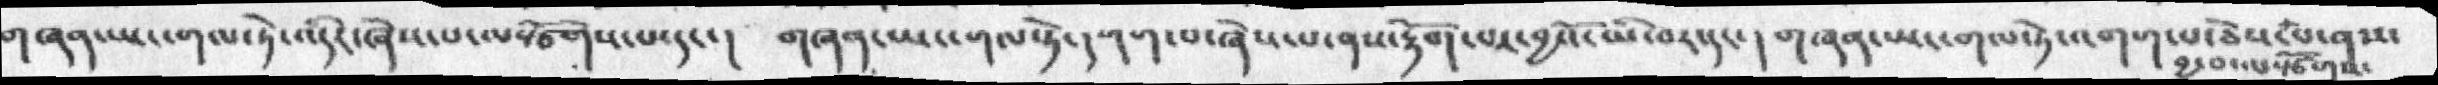གཞན་ཡང་གལ་ཏེ་འདིར་ཞེས་པ་ལསྩོགས་པ་དང་།   གཞན་ཡང་གལ་ཏེ་དགག་པ་ཞེས་པ་ནས་རྟོག་པར་བྱའོ་མི་བར་དང་།  གཞན་ཡང་གལ་ཏེ་དགག་པ་ཅེས་བྱ་ལསྩོགས་པ་ནས་
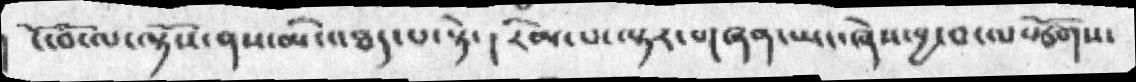ངོ་བོ་ལ་ལྟོས་ནས་མི་འཐད་པ་སྟེ་། རིམ་པ་ལྟར་གཞན་ཡང་ཞེས་བྱ་བ་ལསྩོགས་
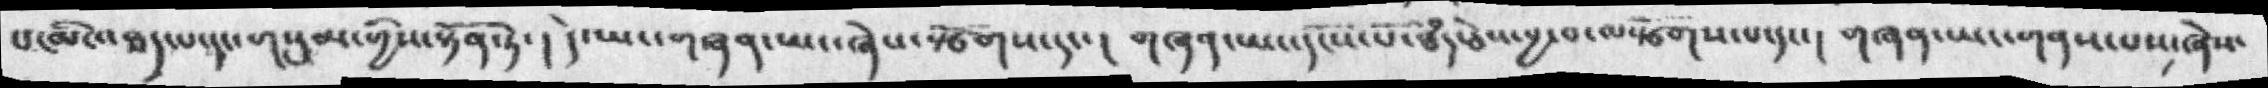པ་མི་འཐད་པ་དང་གསུམ་གྱིས་སྟོན་ཏེ་། དེ་ཡང་གཞན་ཡང་ཞེས་སྩོགས་དང་།  གཞན་ཡང་དངོས་པོ་ཐཾད་ཅེས་བྱ་བ་ལསྩོགས་པ་དང་།  གཞན་ཡང་གནས་པས་ཞེས་
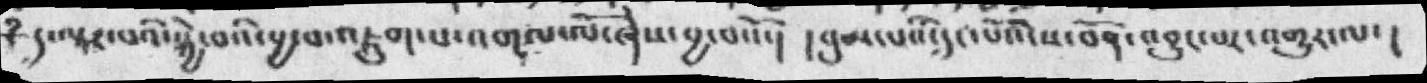རི་  ད་ལྟར་པའི་སྐྱེ་བའི་བྱ་བ་འཇུག་པ་འགལ་ལོ་ཞེས་བྱ་བའོ་།   །བུམ་པའི་དང་པོའི་ས་བོན་འབྱུང་པར་འགྱུར་ལ་  །
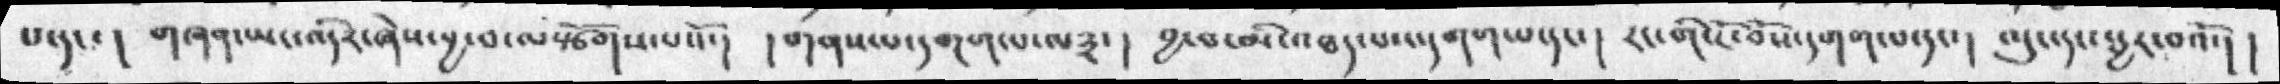པ་དང་།  གཞན་ཡང་འདིར་ཞེས་བྱ་བ་ལསྩོགས་པའོ་།  །གནས་པ་དགག་པ་ལ༣་།  བྱ་བ་མི་འཐད་པས་དགག་པ་དང་།   རང་གི་ངོ་བོས་དགག་པ་དང་།   ལུང་དང་སྦྱར་བའོ་། །
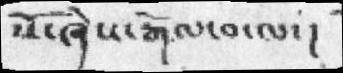སོ་ཞེས་རྒོལ་བ་ལ་།
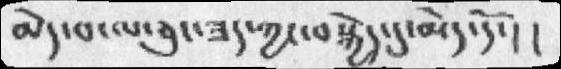མེད་པ་ལ་ཅུང་ཟད་ཀྱང་བསྐྱེད་དུ་མེད་དོ་། །
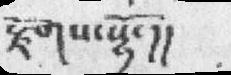སྫོགས་སྷོ་།།
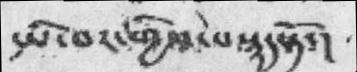ཡི་བར་གྱིས་བསྙད་དོ་།
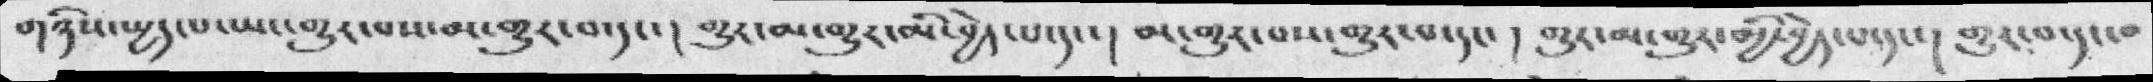གཉིས་སྤྱད་པ་ཡང་གྱུར་པས་མ་གྱུར་བ་དང་།  གྱུར་མ་གྱུར་མི་བྱེད་པ་དང་།  མ་གྱུར་བས་གྱུར་བ་དང་། གྱུར་མ་གྱུར་མྱི་བྱེད་པ་དང་། གྱུར་བ་དང་བ
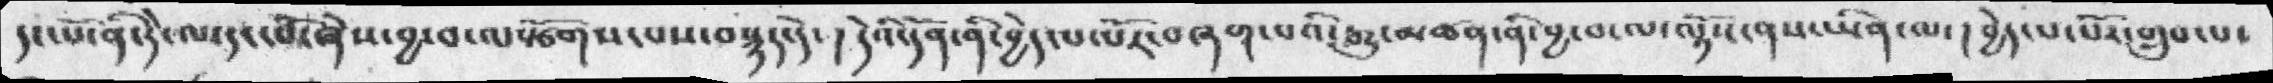དང་པོ་ནི་དེ་ལ་དང་པོ་ཞེས་བྱ་བ་ལསྩོགས་པས་བསྙད་དེ་།  དེའི་དོན་ནི་བྱེད་པ་པོར་བཞག་པའི་རྒྱུ་མཚན་ནི་བྱ་བ་ལ་ལྟོས་ནས་ཡིན་ལ་། བྱེད་པ་པོར་གྲུབ་པ་
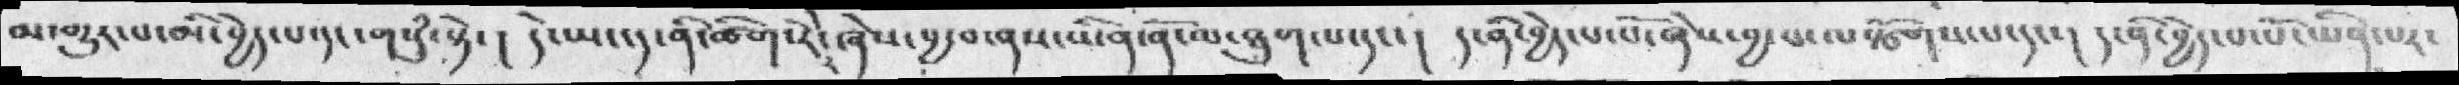མ་གྱུར་པ་མི་བྱེད་པ་དང་གསུཾ་སྟེ་།   དེ་ཡང་ད་ནི་ཚིག་རེ་རེ་ཞེས་བྱ་བ་ནས་ཡིན་ནོ་ལ་ཐུག་པ་དང་།   ད་ནི་བྱེད་པ་པོ་ཞེས་བྱ་བ་ལསྩོགས་པ་དང་།  ད་ནི་བྱེད་པ་པོ་ཡིན་པར་
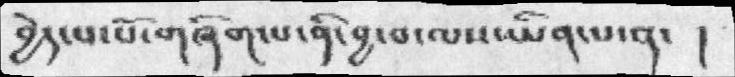བྱེད་པ་པོ་གཞིག་པ་ནི་བྱ་བ་ལས་ཡིན་པ་ན་ །
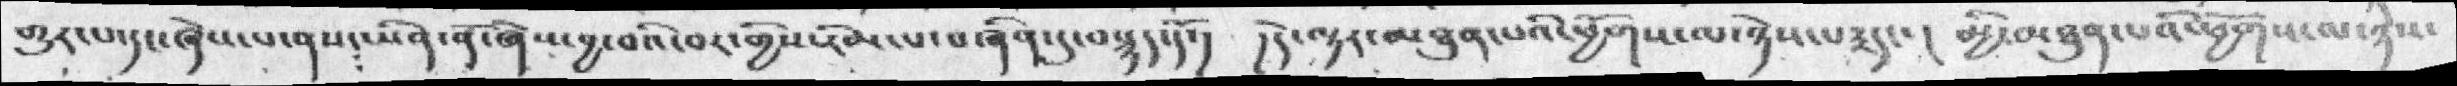གྱུར་པ་དང་ཞེས་པ་ནས་ཡིན་ནོ་ཞེས་བྱ་བའི་བར་གྱིས་རིམ་པ་བཞིན་དུ་བསྙད་དོ་། །དེ་ལྟར་མཐུན་པའི་ཕྱོགས་ལ་ཉེས་པ༣དང་། མྱི་མཐུན་པའི་ཕྱོགས་ལ་ཉེས་
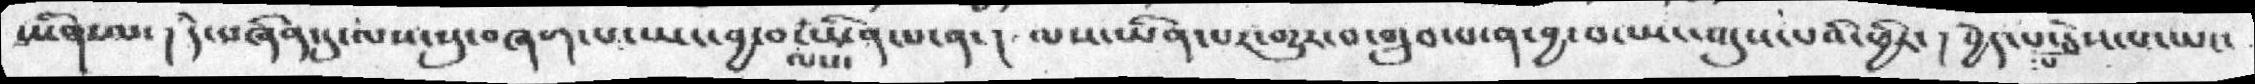ཡིན་ལ་།  དེ་བཞིནདུ་ལས་སུ་བཞག་པ་ཡང་བྱ་བ་ལས་ཡིན་པ་ན་།  ལས་ཡིན་པར་གྱུར་བ་གྲུབ་པ་ན་བྱ་བ་ཡང་འདུས་པའི་ཕྱིར་།  བྱེད་པ་པོ་ཅེས་པ་ཡང་
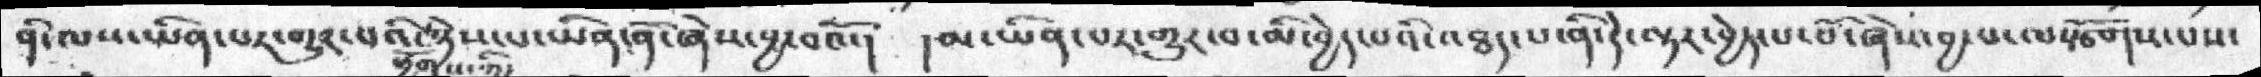ནི་ལས་ཡིན་པར་གྱུར་པའི་ཕྱོགས་ཀྱི་ཉེས་པ་ཡིན་ནོ་ཞེས་བྱ་བའོ་།   །མ་ཡིན་པར་གྱུར་བ་མི་བྱེད་པའི་འཐད་པ་ནི་དེ་ལྟར་བྱེད་པ་པོ་ཞེས་བྱ་བ་ལསྩོགས་པས་
